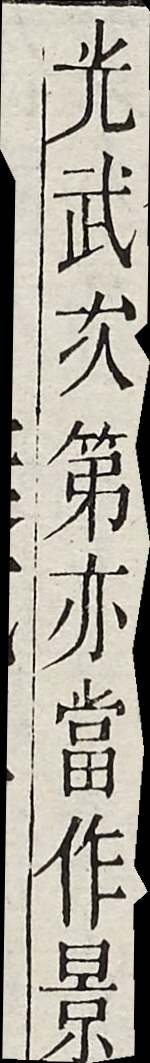光武次第亦當作景
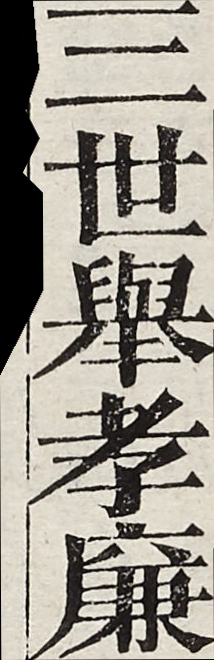三世舉孝廉
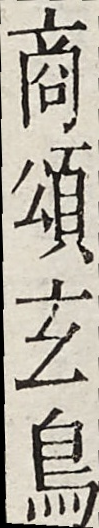商頌玄鳥
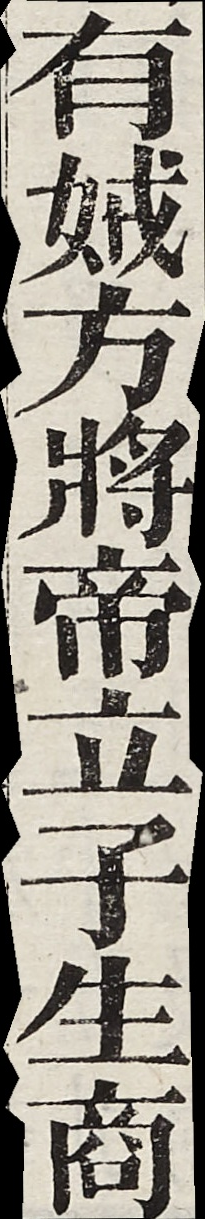有娀方將帝立子生商
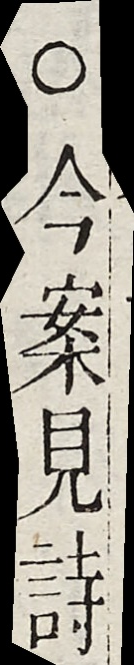○今案見詩
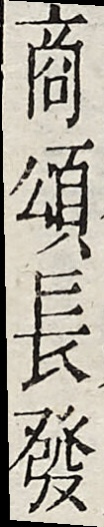商頌長發
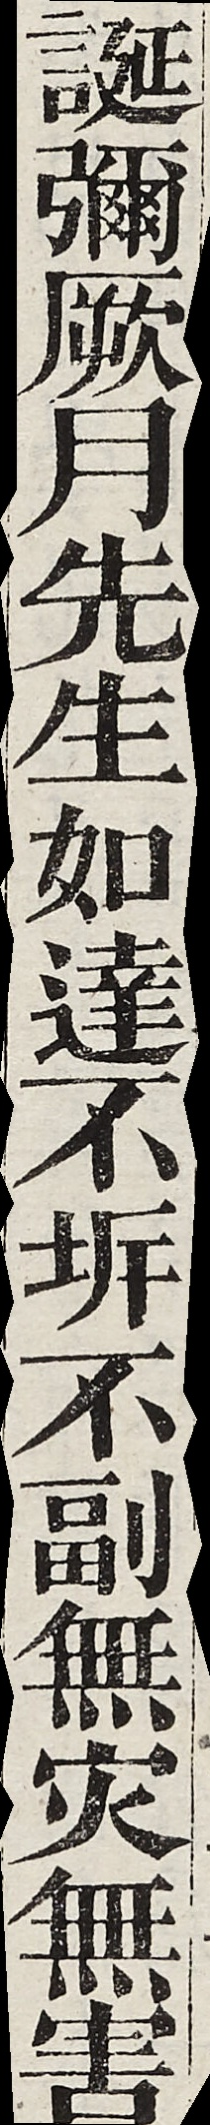誕彌厥月先生如達不坼不副無灾無害
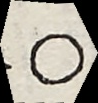○
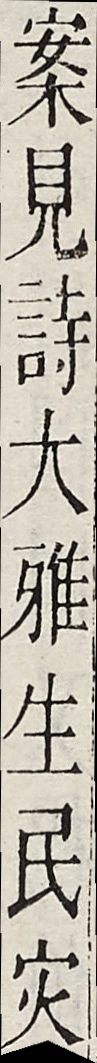案見詩大雅生民灾
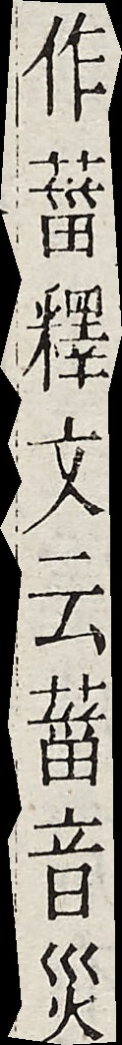作菑釋文云菑音災
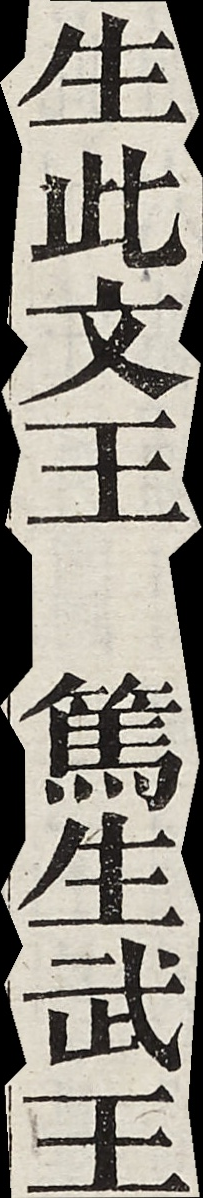生此文王　篤生武王
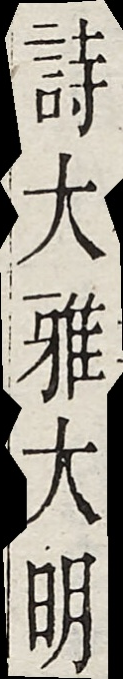詩大雅大明
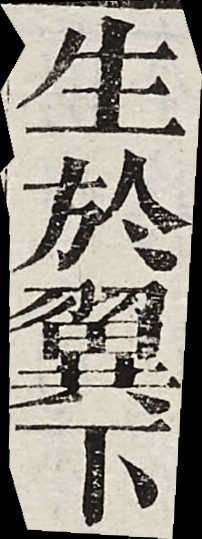生於翼下
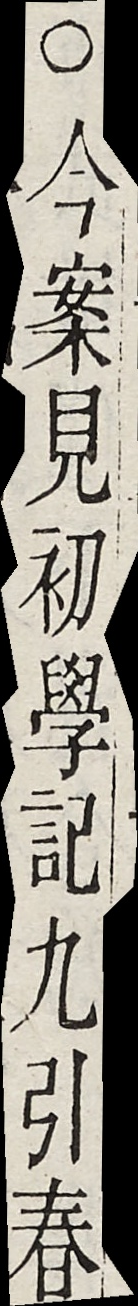○今案見初學記九引春
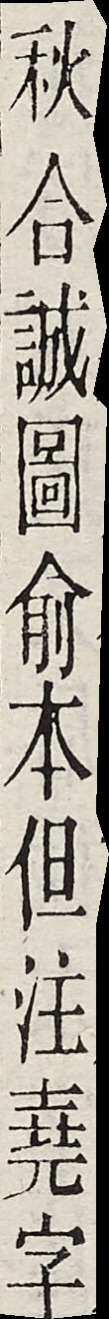秋合誠圖俞本但注堯字
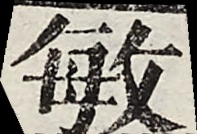敏
